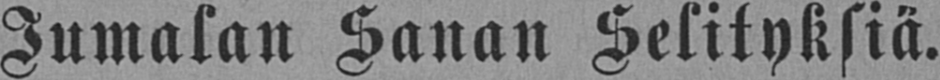Jumalan Sanan Selityksiä.
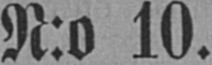N:o 10.
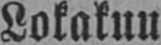Lokakuu.
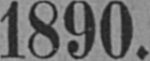1890.
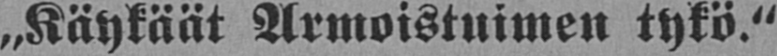„Käykäät Armoistuimen tykö."
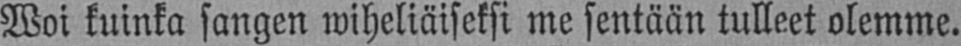Woi kuinka sangen wiheliäiseksi me sentään tulleet olemme.
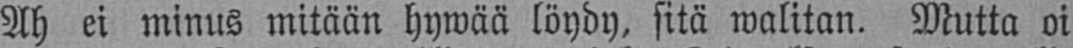Ah ei minus mitään hywää löydy, sitä walitan. Mutta oi
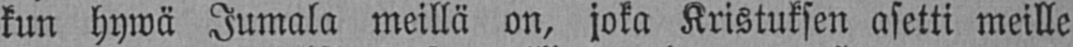kun hywä Jumala meillä on, joka Kristuksen asetti meille
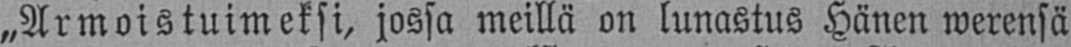„Armoistuimeksi, jossa meillä on lunastus Hänen werensä
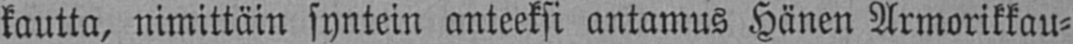kautta, nimittäin syntein anteeksi antamus Hänen Armorikkau-
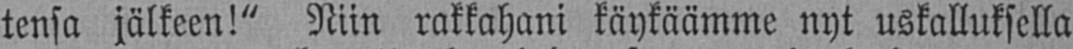tensa jälkeen!" Niin rakkahani käykäämme nyt uskalluksella
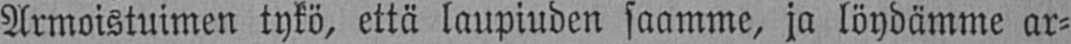Armoistuimen tykö, että laupiuden saamme, ja löydämme ar-
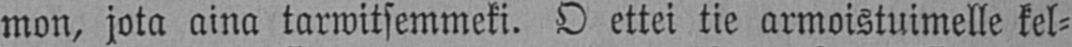mon, jota aina tarwitsemmeki. O ettei tie armoistuimelle kel-
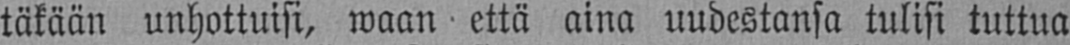täkään unhottuisi, waan että aina uudestansa tulisi tuttua
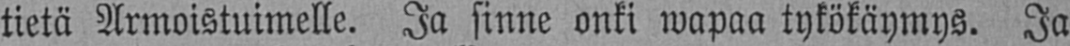tietä Armoistuimelle. Ja sinne onki wapaa tykökäymys. Ja
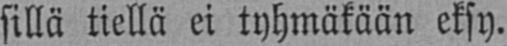sillä tiellä ei tyhmäkään eksy.
